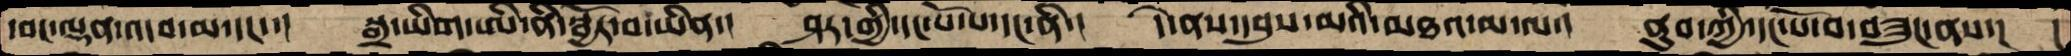དབང་ལྡན་འདབ་མ་དང་་།  སྒྲ་ཡིག་ཨི་ནི་སྦྱོར་བ་ཡིན་།  ཤར་གྱི་དང་པོ་པ་དང་ནི་།  དེ་ནས་དབུས་མའི་མཐའ་མ་ལ་།  ནུབ་ཀྱི་དང་པོ་བ་བཟུང་ནས་།  །
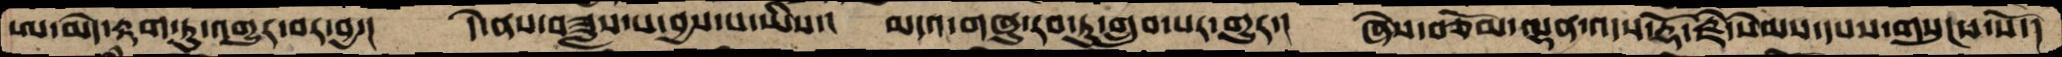ཨ་མེད་རྟག་ཏུ་འགྱུར་བར་བྱ་།  དེ་ནས་བཟླས་པ་བྱས་པ་ཡིས་།  མདའ་གཞུ་རབ་ཏུ་གྲུབ་པར་གྱུར་།  ཞེས་བཅོམ་ལྡན་འདས་རྡོ་རྗེ་སེམས་དཔས་གསུངས་སོ་།
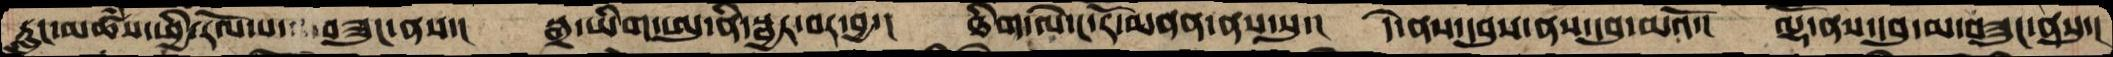རླུང་མཚཾས་ཕྱི་རོལ་པ་བཟུང་ནས་།  སྒྲ་ཡིག་ཨུ་ནི་སྦྱར་བར་བྱ་། ཐིག་ལེ་ང་རོ་མནན་ནས་སུ་། དེ་ནས་དབུས་ནས་དབུ་མའོ་། ལྷོ་ནས་དབུ་མ་བཟུང་ནསུ་།
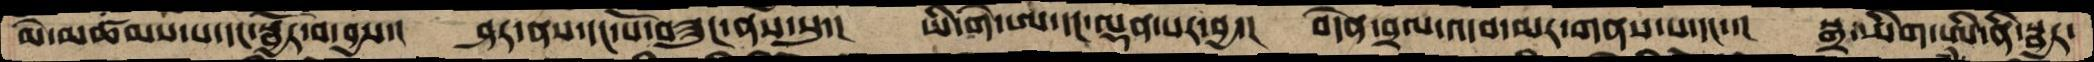མེ་མཚམས་པ་དང་སྦྱོར་བ་བྱས་།  ཤར་ནས་དང་པོ་བཟུང་ནས་སུ་།  ཡི་གེ་ཨ་དང་ལྡན་པར་བྱ་།  བདེན་བྲལ་འདབ་མར་གནས་པ་དང་་།  སྒྲ་ཡིག་ཨི་ནི་སྦྱར་
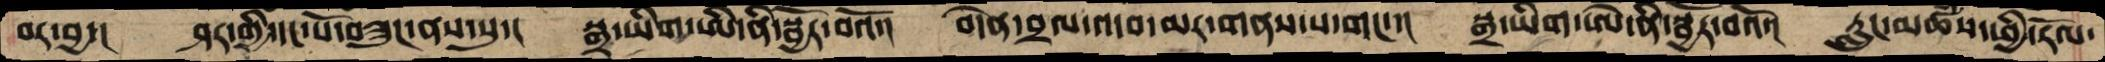བར་བྱ་།  ཤར་གྱི་དང་པོ་བཟུང་ནས་སུ་།  སྒྲ་ཡིག་ཨི་ནི་སྦྱོར་བའོ་།  བདེན་བྲལ་འདབ་མར་གནས་པ་གང་་།  སྒྲ་ཡིག་ཨེ་ནི་སྦྱོར་བའོ་།  རླུང་མཚཾས་ཕྱི་རོལ་
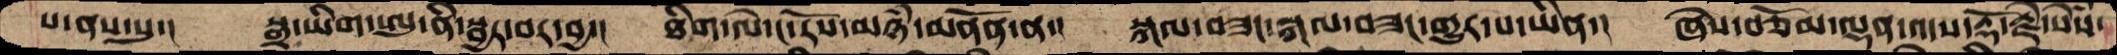པ་ནས་སུ་།  སྒྲ་ཡིག་ཨུ་ནི་སྦྱར་བར་བྱ་།  ཐིག་ལེ་ང་རོས་མཉཾ་མནོན་ན་།  སྐལ་བཟང་སྐལ་བཟང་གྱུར་པ་ཡིན་།  ཞེས་བཅོམ་ལྡན་འདས་རྡོ་རྗེ་སེཾས་
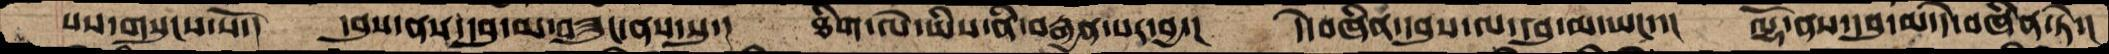པས་གསུངས་སོ་།   དབུས་ནས་དབུ་མ་བཟུང་ནས་སུ་།  ཐིག་ལེ་ཡིས་ནི་བརྒྱན་པར་བྱ་།  དེ་བཞིན་དབུས་ལ་དབུ་མ་ཡང་་།  ལྷོ་ནས་དབུ་མ་དེ་བཞིན་ཏེ་།
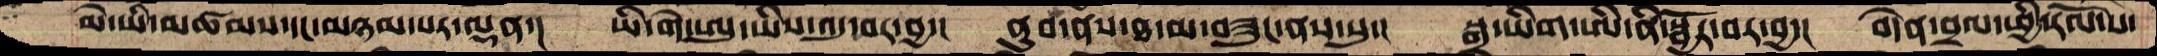མེ་ཡི་མཚམས་དང་མཉམ་པར་ལྡན་།  ཡི་གེ་ཨུ་ཡིས་འདུ་བར་བྱ་།  ནུབ་ནས་ཐ་མ་བཟུང་ནས་སུ་།  སྒྲ་ཡིག་ཨི་ནི་སྦྱོར་བར་བྱ་།  བདེན་བྲལ་ཕྱི་རོལ་པ་
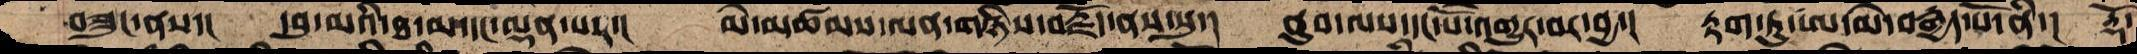བཟུང་ནས་།  དབུ་མའི་ཐ་མ་དང་ལྡན་པར་།  མེ་མཚམས་ལན་གཉིས་བརྗོད་ནས་སུ་།  ནུབ་ལས་དང་པོ་འགྱུར་བར་བྱ་།  རྟག་ཏུ་ཨ་མེ་བརྒྱད་པོ་ནི་།  རྡོ་
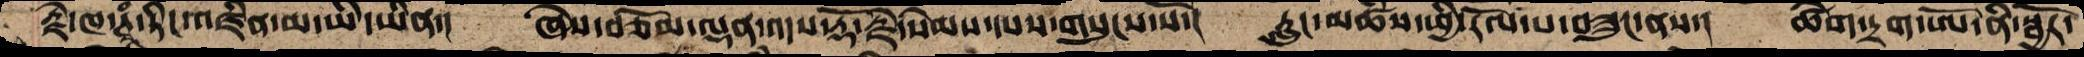རྗེ་ཁ་ཊྭཱཾ་ཏིང་འཛིན་མ་ཡི་ཡིན་།  ཞེས་བཅོམ་ལྡན་འདས་རྡོ་རྗེ་སེམས་དཔས་གསུངས་སོ་།  རླུང་མཚཾས་ཕྱི་རོལ་པ་བཟུང་ནས་།  ཚེག་དྲག་ཨོ་ནི་སྦྱོར་
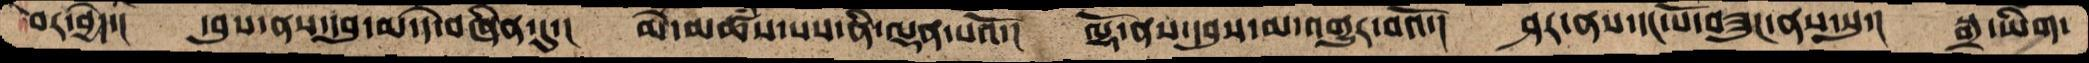བར་བྱེད་།  དབུས་ནས་དབུ་མ་དེ་བཞིན་དུ་།  མེ་མཚཾས་པས་ནི་ལྡན་པའོ་།  ལྷོ་ནས་དབུས་མ་འགྱུར་བའོ་།  ཤར་ནས་དང་པོ་བཟུང་ནས་སུ་།  སྒྲ་ཡིག་
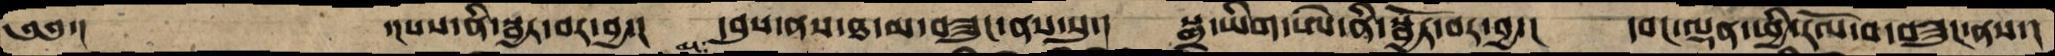༄༅་།        ་།པས་ནི་སྦྱར་བར་བྱ་།  དབུས་ནས་ཐ་མ་བཟུང་ནས་སུ་། སྒྲ་ཡིག་ཨེ་ནི་སྦྱོར་བར་བྱ་། དབང་ལྡན་ཕྱི་རོལ་བ་བཟུང་ནས་།
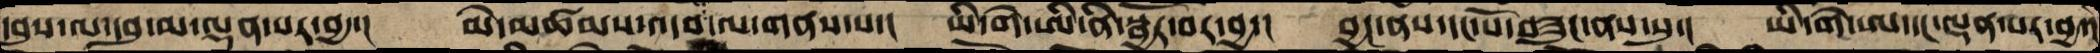དབུས་ལ་དབུ་མ་ལྡན་པར་བྱ་། མེ་མཚམས་འདབ་མ་ལ་གནས་པ་། ཡི་གེ་ཨི་ནི་སྦྱོར་བར་བྱ་།  བྱང་ནས་དང་པོ་བཟུང་ནས་སུ་། ཡི་གེ་ཨ་དང་ལྡན་པར་བྱ་།
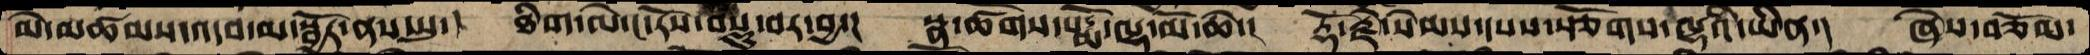མེ་མཚམས་འདབ་མ་སྦྱོར་ནས་སུ་།  ཐིག་ལེ་ང་རོས་བསྡུ་བར་བྱ་།  སྣ་ཚོགས་པདྨོ་ལྷ་མོ་ཆེ་།  རྡོ་རྗེ་སེམས་དསས་སྩོགསལྷའི་ཡིན་།  ཞེས་བཅོམ་
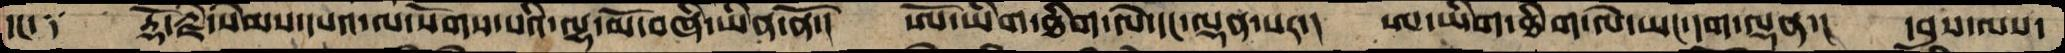དང་༑  རྡོ་རྗེ་སེམས་དཔའ་ལ་སོགས་པའི་ལྷ་མོ་བཞི་ཡིན་ནོ་།  ཨོ་ཡིག་ཐིག་ལེ་དང་ལྡན་པར་།  ཨ་ཡིག་ཐིག་ལེ་ཡང་དག་ལྡན་།  དབུས་ལས་
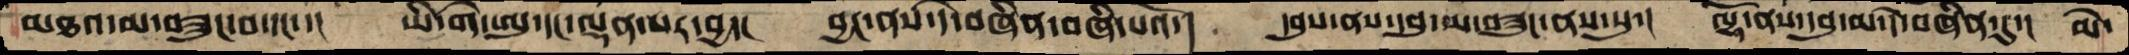མཐའ་མ་བཟུང་བ་དང་་།  ཡི་གེ་ཨུ་དང་ལྡན་པར་བྱ་།  བྱང་ནས་དེ་བཞིན་བཞི་པའོ་།  དབུས་ནས་དབུ་མ་བཟུང་ནས་སུ་།  ལྷོ་ནས་དབུ་མ་དེ་བཞིན་དུ་།  མེ་
